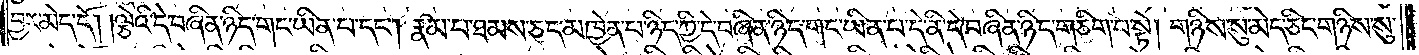བྱར་མེད་དོ། །ལྕེའི་དེ་བཞིན་ཉིད་གང་ཡིན་པ་དང༌། རྣམ་པ་ཐམས་ཅད་མཁྱེན་པ་ཉིད་ཀྱི་དེ་བཞིན་ཉིད་གང་ཡིན་པ་དེ་ནི་དེ་བཞིན་ཉིད་གཅིག་པ་སྟེ། གཉིས་སུ་མེད་ཅིང་གཉིས་སུ་
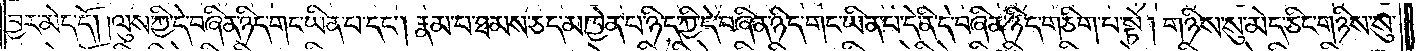བྱར་མེད་དོ། །ལུས་ཀྱི་དེ་བཞིན་ཉིད་གང་ཡིན་པ་དང༌། རྣམ་པ་ཐམས་ཅད་མཁྱེན་པ་ཉིད་ཀྱི་དེ་བཞིན་ཉིད་གང་ཡིན་པ་དེ་ནི་དེ་བཞིན་ཉིད་གཅིག་པ་སྟེ། གཉིས་སུ་མེད་ཅིང་གཉིས་སུ་
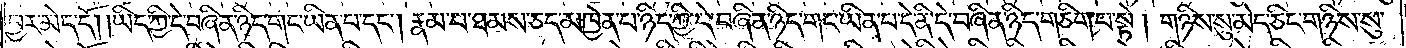བྱར་མེད་དོ། །ཡིད་ཀྱི་དེ་བཞིན་ཉིད་གང་ཡིན་པ་དང༌། རྣམ་པ་ཐམས་ཅད་མཁྱེན་པ་ཉིད་ཀྱི་དེ་བཞིན་ཉིད་གང་ཡིན་པ་དེ་ནི་དེ་བཞིན་ཉིད་གཅིག་པ་སྟེ། གཉིས་སུ་མེད་ཅིང་གཉིས་སུ་
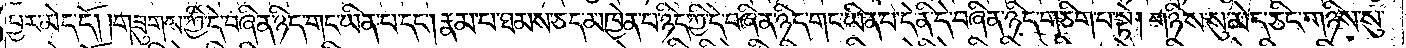བྱར་མེད་དོ། །གཟུགས་ཀྱི་དེ་བཞིན་ཉིད་གང་ཡིན་པ་དང༌། རྣམ་པ་ཐམས་ཅད་མཁྱེན་པ་ཉིད་ཀྱི་དེ་བཞིན་ཉིད་གང་ཡིན་པ་དེ་ནི་དེ་བཞིན་ཉིད་གཅིག་པ་སྟེ། གཉིས་སུ་མེད་ཅིང་གཉིས་སུ་
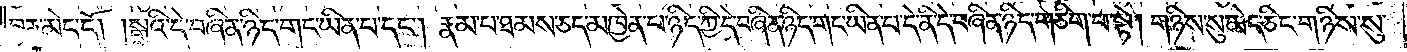བྱར་མེད་དོ། །སྒྲའི་དེ་བཞིན་ཉིད་གང་ཡིན་པ་དང༌། རྣམ་པ་ཐམས་ཅད་མཁྱེན་པ་ཉིད་ཀྱི་དེ་བཞིན་ཉིད་གང་ཡིན་པ་དེ་ནི་དེ་བཞིན་ཉིད་གཅིག་པ་སྟེ། གཉིས་སུ་མེད་ཅིང་གཉིས་སུ་
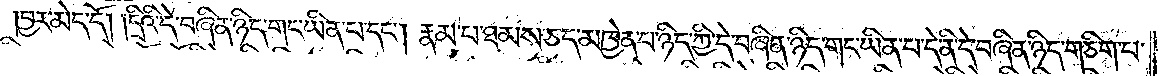བྱར་མེད་དོ། །དྲིའི་དེ་བཞིན་ཉིད་གང་ཡིན་པ་དང༌། རྣམ་པ་ཐམས་ཅད་མཁྱེན་པ་ཉིད་ཀྱི་དེ་བཞིན་ཉིད་གང་ཡིན་པ་དེ་ནི་དེ་བཞིན་ཉིད་གཅིག་པ་
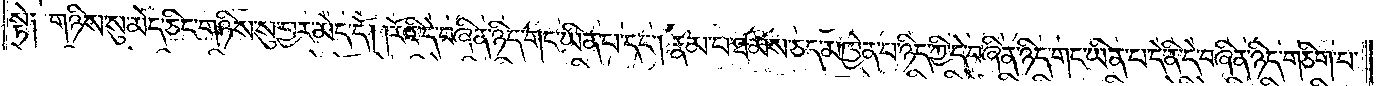སྟེ༑ གཉིས་སུ་མེད་ཅིང་གཉིས་སུ་བྱར་མེད་དོ། །རོའི་དེ་བཞིན་ཉིད་གང་ཡིན་པ་དང༌། རྣམ་པ་ཐམས་ཅད་མཁྱེན་པ་ཉིད་ཀྱི་དེ་བཞིན་ཉིད་གང་ཡིན་པ་དེ་ནི་དེ་བཞིན་ཉིད་གཅིག་པ་
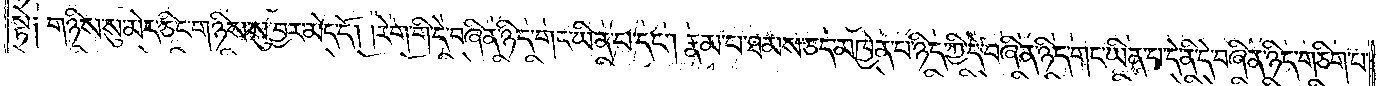སྟེ༑ གཉིས་སུ་མེད་ཅིང་གཉིས་སུ་བྱར་མེད་དོ། །རེག་གི་དེ་བཞིན་ཉིད་གང་ཡིན་པ་དང༌། རྣམ་པ་ཐམས་ཅད་མཁྱེན་པ་ཉིད་ཀྱི་དེ་བཞིན་ཉིད་གང་ཡིན་པ་དེ་ནི་དེ་བཞིན་ཉིད་གཅིག་པ་
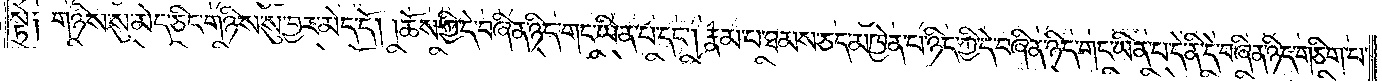སྟེ༑ གཉིས་སུ་མེད་ཅིང་གཉིས་སུ་བྱར་མེད་དོ། །ཆོས་ཀྱི་དེ་བཞིན་ཉིད་གང་ཡིན་པ་དང༌། རྣམ་པ་ཐམས་ཅད་མཁྱེན་པ་ཉིད་ཀྱི་དེ་བཞིན་ཉིད་གང་ཡིན་པ་དེ་ནི་བཞིན་ཉིད་གཅིག་པ་
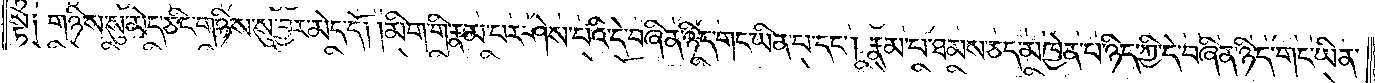སྟེ༑ གཉིས་སུ་མེད་ཅིང་གཉིས་སུ་བྱར་མེད་དོ། །མིག་གི་རྣམ་པར་ཤེས་པའི་དེ་བཞིན་ཉིད་གང་ཡིན་པ་དང༌། རྣམ་པ་ཐམས་ཅད་མཁྱེན་པ་ཉིད་ཀྱི་དེ་བཞིན་ཉིད་གང་ཡིན་
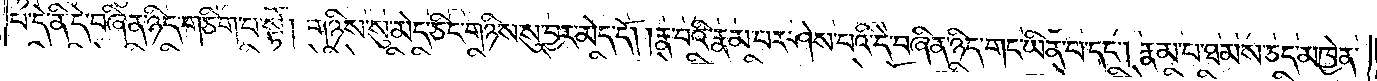པ་དེ་ནི་དེ་བཞིན་ཉིད་གཅིག་པ་སྟེ། གཉིས་སུ་མེད་ཅིང་གཉིས་སུ་བྱར་མེད་དོ། །རྣ་བའི་རྣམ་པར་ཤེས་པའི་དེ་བཞིན་ཉིད་གང་ཡིན་པ་དང༌། རྣམ་པ་ཐམས་ཅད་མཁྱེན་
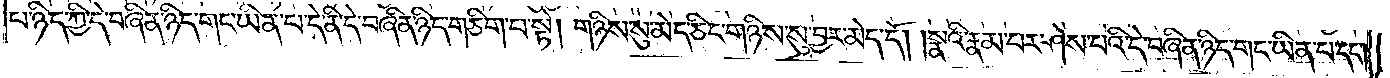པ་ཉིད་ཀྱི་དེ་བཞིན་ཉིད་གང་ཡིན་པ་དེ་ནི་དེ་བཞིན་ཉིད་གཅིག་པ་སྟེ། གཉིས་སུ་མེད་ཅིང་གཉིས་སུ་བྱར་མེད་དོ། །སྣའི་རྣམ་པར་ཤེས་པའི་དེ་བཞིན་ཉིད་གང་ཡིན་པ་དང༌།
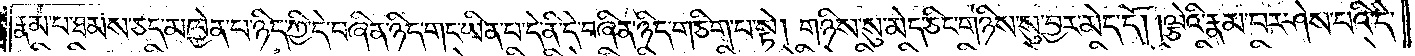རྣམ་པ་ཐམས་ཅད་མཁྱེན་པ་ཉིད་ཀྱི་དེ་བཞིན་ཉིད་གང་ཡིན་པ་དེ་ནི་དེ་བཞིན་ཉིད་གཅིག་པ་སྟེ། གཉིས་སུ་མེད་ཅིང་གཉིས་སུ་བྱར་མེད་དོ། །ལྕེའི་རྣམ་པར་ཤེས་པའི་དེ་
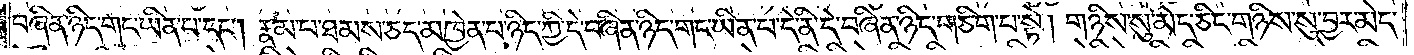བཞིན་ཉིད་གང་ཡིན་པ་དང༌། རྣམ་པ་ཐམས་ཅད་མཁྱེན་པ་ཉིད་ཀྱི་དེ་བཞིན་ཉིད་གང་ཡིན་པ་དེ་ནི་དེ་བཞིན་ཉིད་གཅིག་པ་སྟེ། གཉིས་སུ་མེད་ཅིང་གཉིས་སུ་བྱར་མེད་
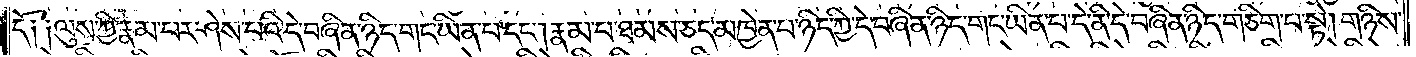དོ༑ ༑ལུས་ཀྱི་རྣམ་པར་ཤེས་པའི་དེ་བཞིན་ཉིད་གང་ཡིན་པ་དང༌། རྣམ་པ་ཐམས་ཅད་མཁྱེན་པ་ཉིད་ཀྱི་དེ་བཞིན་ཉིད་གང་ཡིན་པ་དེ་ནི་དེ་བཞིན་ཉིད་གཅིག་པ་སྟེ། གཉིས་
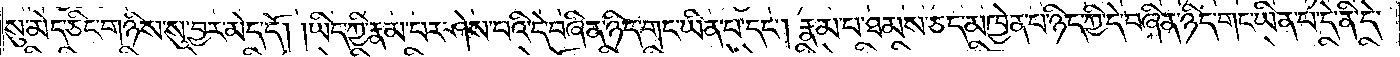སུ་མེད་ཅིང་གཉིས་སུ་བྱར་མེད་དོ། །ཡིད་ཀྱི་རྣམ་པར་ཤེས་པའི་དེ་བཞིན་ཉིད་གང་ཡིན་པ་དང༌། རྣམ་པ་ཐམས་ཅད་མཁྱེན་པ་ཉིད་ཀྱི་དེ་བཞིན་ཉིད་གང་ཡིན་པ་དེ་ནི་དེ་
